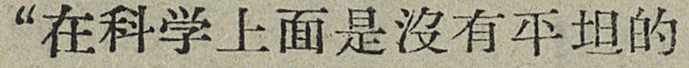“在科学上面是沒有平坦的
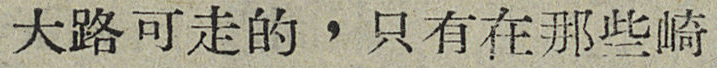大路可走的，只有在那些崎
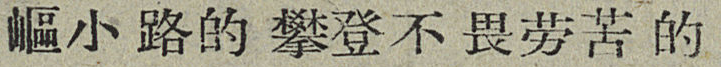嶇小路的攀登不畏劳苦的
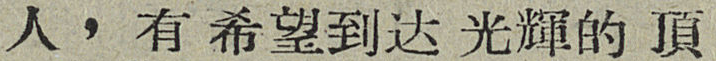人，有希望到达光輝的頂
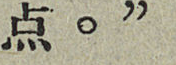点。”
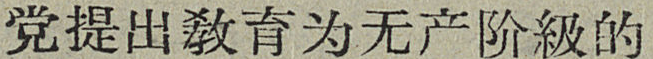党提出敎育为无产阶級的
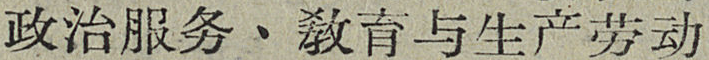政治服务、敎育与生产劳动
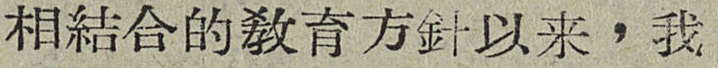相結合的敎育方針以来，我
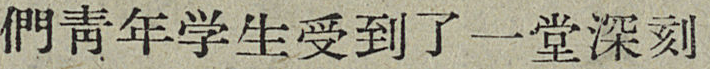們靑年学生受到了一堂深刻
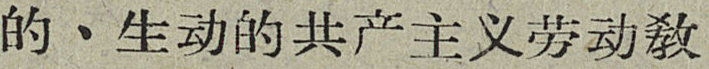的、生动的共产主义劳动敎
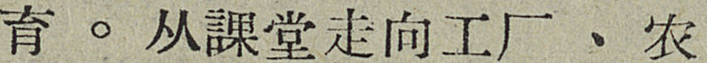育。从課堂走向工厂、农
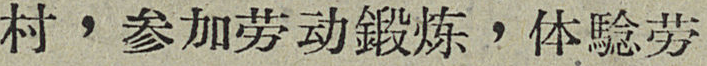村，参加劳动鍛炼，体騐劳
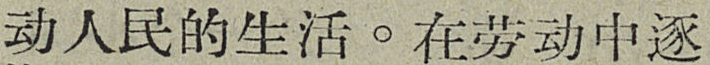动人民的生活。在劳动中逐
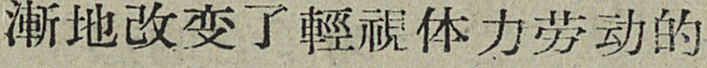漸地改变了輕視体力劳动的
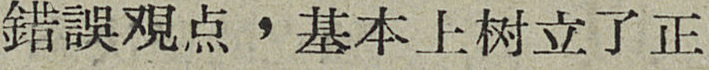錯誤覌点，基本上树立了正
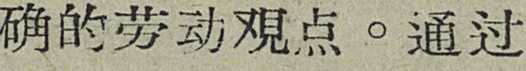确的劳动覌点。通过
